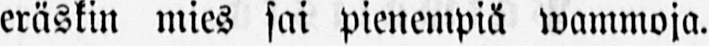eräskin mies sai pienempiä wammoja.
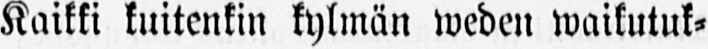Kaikki kuitenkin kylmän weden waikutuk-
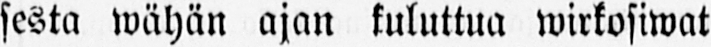sesta wähän ajan kuluttua wirkosiwat
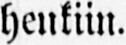henkiin.
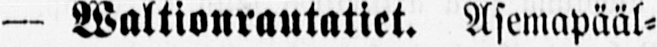— Waltionrautatiet. Asemapääl-
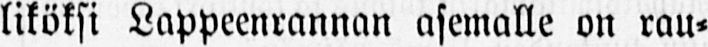liköksi Lappeenrannan asemalle on rau-
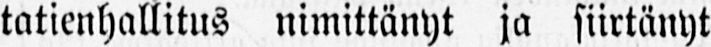tatienhallitus nimittänyt ja siirtänyt
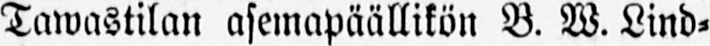Tawastilan asemapäällikön B. W. Lind-
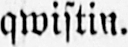qwistin.
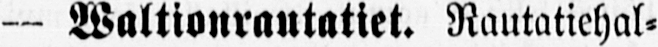— Waltionrautatiet. Rautatiehal-
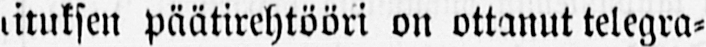lituksen päätirehtööri on ottanut telegra-
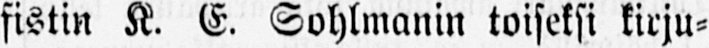fistin K. E. Sohlmanin toiseksi kirju-
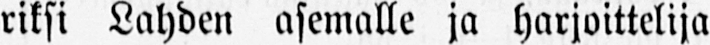riksi Lahden asemalle ja harjoittelija
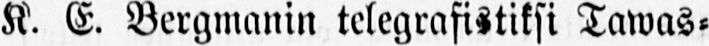K. E. Bergmanin telegrasistiksi Tawas-
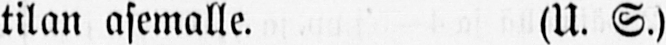tilan asemalle. (U. S.)
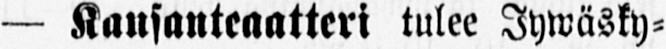— Kansanteaatteri tulee Jywäsky-
